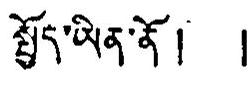སྤྱོད་ཡིན་ནོ། །
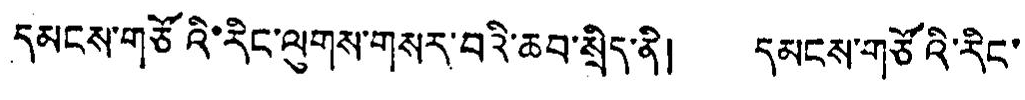དམངས་གཙོའི་རིང་ལུགས་གསར་བའི་ཆབ་སྲིད་ནི། དམངས་གཙོའི་རིང་
